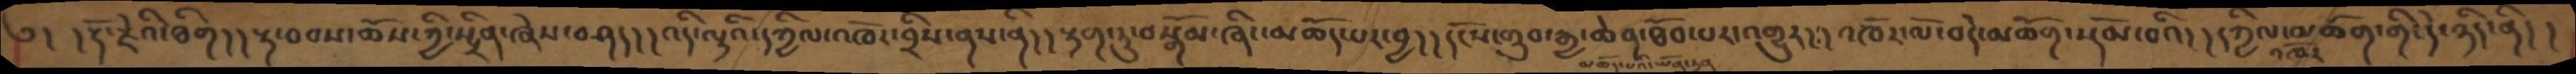༄། །རྡོ་རྗེ་ཐིག། །རྟ་བབས་ཆོས་ཀྱི་སྤྲིན་ཞེས་བཤད། །འདི་ལྟའི་དཀྱིལ་འཁོར་བྲིས་ནས་ནི། །རྟག་ཏུ་བསྒོམ་ཞིང་མཆོད་པར་བྱ། །དངོས་གྲུབ་རྒྱ་ཆེན་ཐོབ་པར་འགྱུར། །འཁོར་ལོ་བདེ་མཆོག་སྡོམ་བའི། །དཀྱིལ་འཁོར་མཆོག་གི་དེ་ཉིད་ནི། །
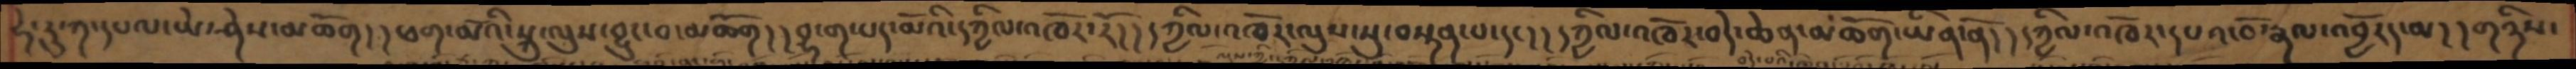ཧེ་རུ་ཀ་དཔལ་ཡེ་ཤེས་མཆོག།།ཕག་མོའི་སྐུ་ལུས་བྱུང་བ་མཆོག།།བྷ་ག་པད་མོའི་དཀྱིལ་འཁོར་རོ།།དཀྱིལ་འཁོར་ལུས་སུ་བསྟན་པ་དང།།དཀྱིལ་འཁོར་བདེ་ཆེན་མཆོག་ཡིན་ནོ།།དཀྱིལ་འཁོར་དཔའ་བོ་རྣལ་འབྱོརད་མ།།གཉིས་
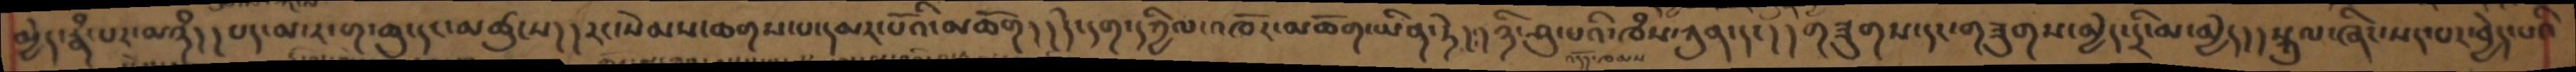མྱེད་རྣྃ་པར་མཉཾ།།པད་མ་ར་ག་ཆུ་དང་མཚུངས།།རང་སེམས་ཆགས་པ་དམར་པོའི་མཆོག།།དེ་དག་དཀྱིལ་འཁོར་མཆོག་ཡིན་ཏེ།།ཉི་ཤུ་པའི་ཁཾས་ཀུན་དང། །གཟུགས་དང་གཟུགས་མྱེད་དྲི་མ་མྱེད།།སྐུལ་ཞིང་སད་པར་བྱེད་པའི
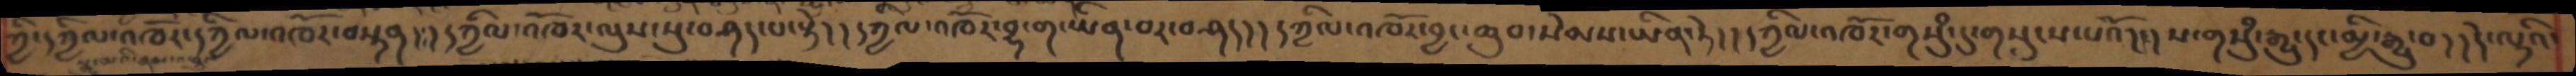ཀྱི་དཀྱིལ་འཁོར་དཀྱིལ་འཁོར་བསྟན།།དཀྱིལ་འཁོར་ལུས་སུ་བཤད་པ་སྟེ།།དཀྱིལ་འཁོར་བྷ་ག་ཡིན་བར་བཤད།།དཀྱིལ་འཁོར་བྱང་ཆུབ་སེམས་ཡིན་ཏེ།།དཀྱིལ་འཁོར་གསུཾ་དུ་གསུངས་པའོ།།ས་གསུཾ་རྒྱུ་དང་མྱི་རྒྱུ་བ།།དེ་ལྟའི་
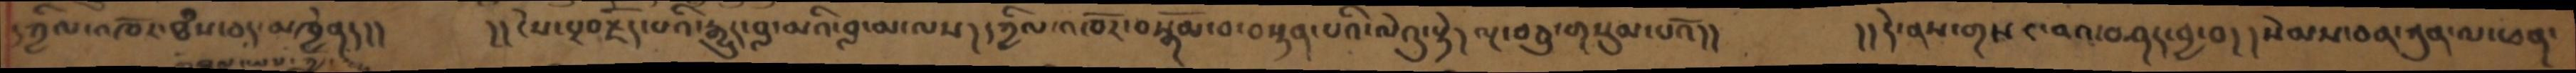དཀྱིལ་འཁོར་ཐཾས་ཅད་མཁྱེནད།།    །།ངེས་པར་བརྗོད་པའི་རྒྱུད་བླ་མའི་བླ་མ་ལས།དཀྱིལ་འཁོར་བསྒོམ་བ་བསྟན་པའི་ལེའུ་སྟེ།ལྔ་བཅུ་གསུམ་པའོ།།   །།དེ་ནས་གསང་བའ་བཤད་བྱ་བ།། སེམས་ཅན་ཀུན་ལ་ཕན་
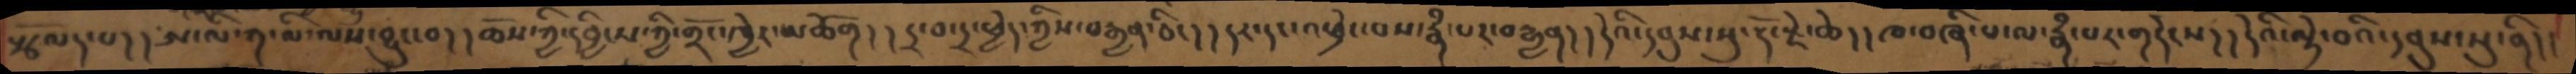སྩོལད་པ།།ཨ་ལི་ཀ་ལི་ལས་བྱུང་བ།།ཆོས་ཀྱི་དབྱིངས་ཀྱི་གྲོང་ཁྱེར་མཆོག།།དྲ་བ་དྲ་ཕྱེད་ཀྱིས་བརྒྱན་ཅིང།།དར་དང་འཕྲེང་པས་རྣཾ་པར་བརྒྱན།།དེའི་དབུས་སུ་རྡོ་རྗེ་ཆེ།།ཁ་བཞི་པ་ལ་རྣཾ་པར་གདེངས།།དེའི་ལྟེ་བའི་དབུས་སུ་ནི།།
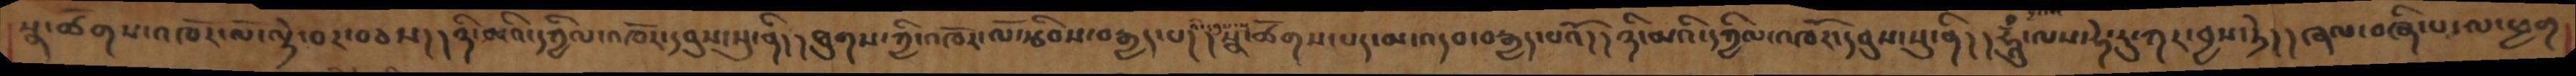སྣ་ཚོགས་འཁོར་ལོ་ལྟེ་བར་བཅས།།ཉི་མའི་དཀྱིལ་འཁོར་དབུས་སུ་ནི།།ཐུགས་ཀྱི་འཁོར་ལོ་རྩིབས་བརྒྱད་པ།།སྣ་ཚོགས་པད་མ་འདབ་བརྒྱད་པའོ།།ཉི་མའི་དཀྱིལ་འཁོར་དབུས་སུ་ནི།།ཧཱུྃ་ལས་ཧེ་རུ་ཀར་བྱས་ཏེ།།ཞལ་བཞི་པ་ལ་ཕྱག
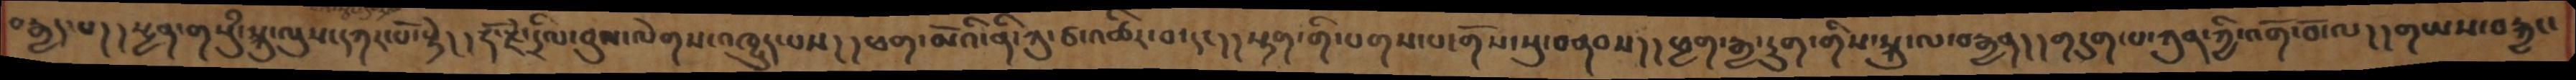བརྒྱད་པ།། སྤྱན་གསུཾ་སྐུ་ལུས་དཀར་པོ་སྟེ།། རྡོ་རྗེ་དྲིལ་བུས་ལེགས་འཁྱུད་པས་། །ཕག་མོའི་ནི་ཀུ་ཙ་འཚིར་བ་དང་།།སྟག་གི་པགས་པ་གོས་སུ་བནབས།།ཕྱག་རྒྱ་དྲུག་གིས་སྐུ་ལ་བརྒྱན།།གདུག་པ་ཀུན་ཀྱི་འགོ་བོ་ལ།།གཡས་བརྐྱང་
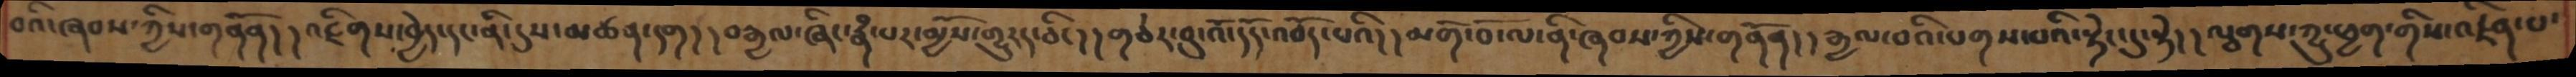བའི་ཞབས་ཀྱིས་གནོན།། འཇིགས་བྱེད་དང་ནི་དུས་མཚན་དག།། བརྒྱལ་ཞིང་རྣཾ་པར་མྱོས་གྱུརད་ཅིང།།གཅེར་བུ་འོ་དོད་འབོད་པའི།།མགོ་བོ་ལ་ནི་ཞབས་ཀྱིས་གནོན།། རྒྱལ་བའི་པགས་པའི་སྟེང་དུ་སྟེ།། ལྕགས་ཀྱུ་ཕྱག་གིས་འཛིན་པ་
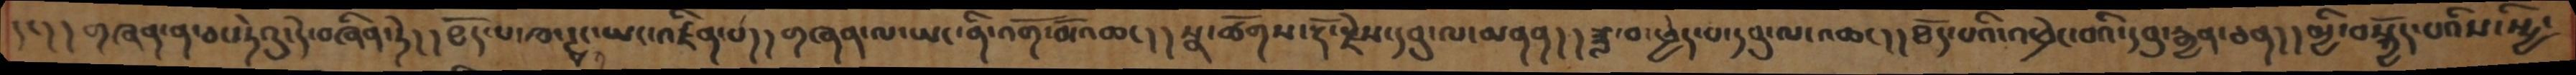དང།། གཞན་ན་ཅང་ཏེའུ་དེ་བཞིན་ཏེ།། ཐོད་པ་ཁ་ཊྭང་ཡང་འཛིན་པ།། གཞན་ལ་ཡང་ནི་འགོ་བོ་འཆང་།། སྣ་ཚོགས་རྡོ་རྗེས་དབུ་ལ་མནན།། ཟླ་བ་ཕྱེད་པ་དབུ་ལ་འཆང།། ཐོད་པའི་འཕྲེང་བའི་དབུ་རྒྱན་ཅན།། མྱི་བསྐྱོད་པའིས་སྤྱི་
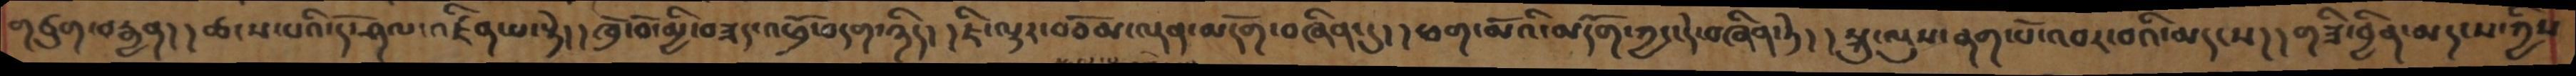གཙུག་བརྒྱན།།ཚངས་པའི་དོ་ཤལ་འཛིན་པ་སྟེ།།ཁྲོ་བོ་མྱི་བཟད་འཕྲོ་བདག་ཉིད། །ཇི་ལྟར་བཅོམ་ལྡན་མདོག་བཞིན་དུ།།ཕག་མོའི་མདོག་ཀྱང་དེ་བཞིན་ཏེ། །སྐུ་ལུས་ནག་པོ་འབར་བའི་མདངས།།གཟི་བྱིན་མདངས་ཀྱིས
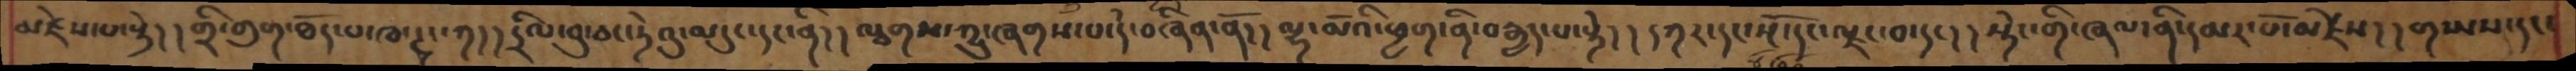མཛེས་པ་སྟེ།།གྲི་གུག་ཐོད་པ་ཁ་ཊྭང་ཀ།།དྲིལ་བུ་ཅང་ཏེའུ་མདུང་དང་ནི།།ལྕགས་ཀྱུ་ཞགས་པ་དེ་བཞིན་ནོ།།ལྷ་མོའི་ཕྱག་ནི་བརྒྱད་པ་སྟེ།།དཀར་དང་སྔོ་དང་ལྗང་བ་དང།།སྟེང་གི་ཞལ་ནི་དམར་པོ་མཛེས།།གཡས་དང་
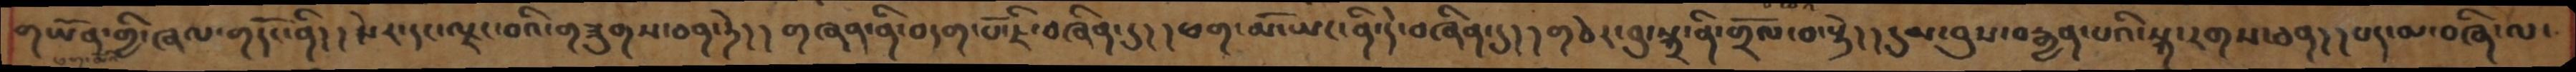གཡོན་གྱི་ཞལ་གདོང་ནི།།སེར་དང་ལྗང་བའི་གཟུགས་ཅན་ཏེ།།གཞན་ནི་བདག་པོ་ཇི་བཞིན་དུ།།ཕག་མོ་ཡང་ནི་དེ་བཞིན་དུ།།གཅེར་བུ་སྐྲ་ནི་གྲོལ་བ་སྟེ།།དུམ་བུས་བརྒྱན་པའི་སྐ་རགས་ཅན།།པད་མ་བཞི་ལ་
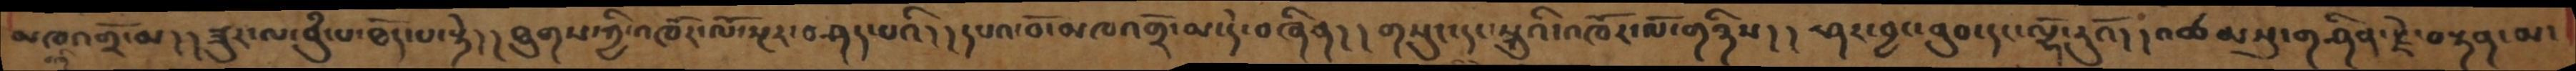མཁའགྲོ་མ།།ཟུར་ལ་བུཾ་པ་ཐོད་པ་སྟེ།།ཐུགས་ཀྱི་འཁོར་ལོ་སྔར་བཤད་པའི།།དཔའ་བོ་མཁའགྲོ་མ་དེ་བཞིན།།གསུང་དང་སྐུའི་འཁོར་ལོ་གཉིས།། ཤར་བྱང་ནུབ་དང་ལྷོ་རུའོ།།འཚམསུ་གཤིན་རྗེ་བརྟན་མ་
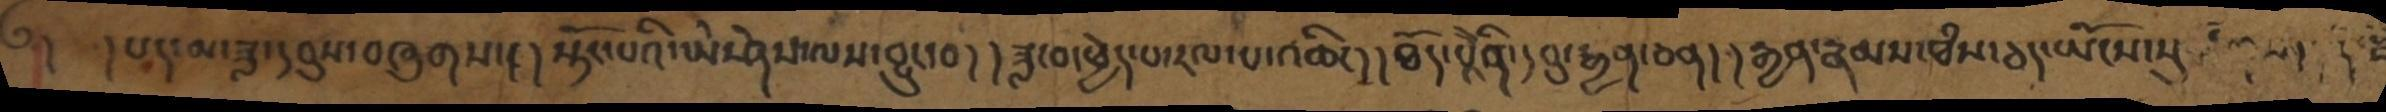༄།   །པད་མ་ཟླ་དབུས་བཞུགས། །སྟོང་པའི་ཡེ་ཤེས་ལས་བྱུང་བ། །ཟླ་བ་ཕྱེད་པ་རལ་པ་འཆིང། །ཐོད་པའི་ནི་དབུ་རྒྱན་ཅན། །རྒྱན་རྣམས་ཐཾས་ཅད་ཡོངས་སུ་རྫོགས། །རྡོ་རྗེ
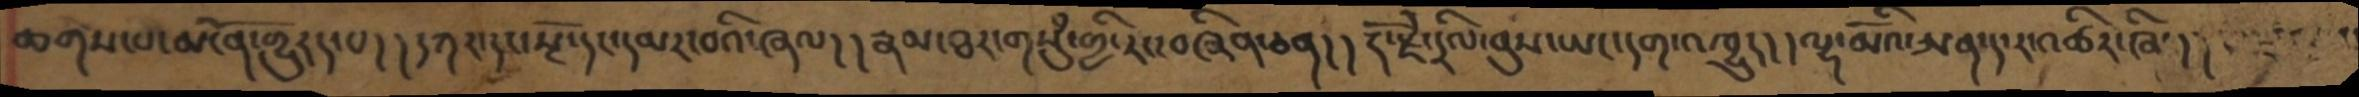ཆགས་པ་མངོན་གྱུརད་པ། །དཀར་དང་སྔོ་དང་དམར་བའི་ཞལ། །རྣམ་ཐར་གསུཾ་གྱི་རང་བཞིན་ཅན། །རྡོ་རྗེ་དྲིལ་བུས་ཡང་དག་འཁྱུད། །ལྷ་མོའི་ཨན་ད་ར་འཚིར་ཞིང།།
